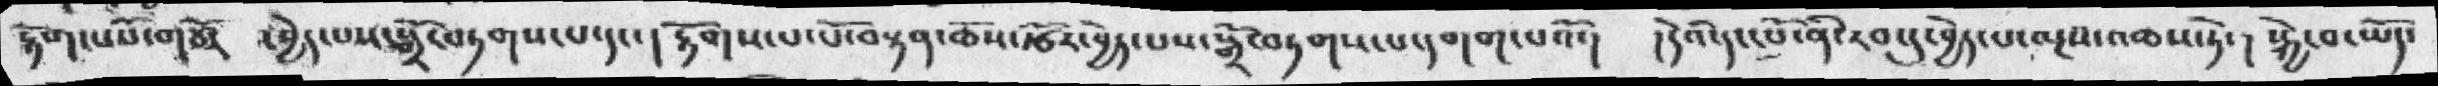རྟོག་པའི་གཅོར  ་བྱེད་པས་སྒྲོ་བཏགས་པ་དང་ ། རྟོགས་པ་པོ་བསྟན་ཆོས་རྩོར་བྱེད་པས་སྒྲོ་བཏགས་པ་དགག་པའོ་།  །དེའི་དང་པོ་ནི་རབ་དུ་བྱེད་པ་ལྔས་འཆས་ཏེ་།  སྐྱེ་བ་ཡོད་
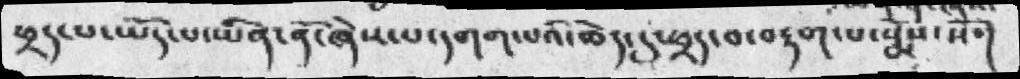ཕྲད་པ་ཡོད་པ་ཡིན་ནོ་ཞེས་པ་དགག་པའི་ཆེད་དུ་ཕྲད་བ་བརྟག་པ་སྨོས་སོ་
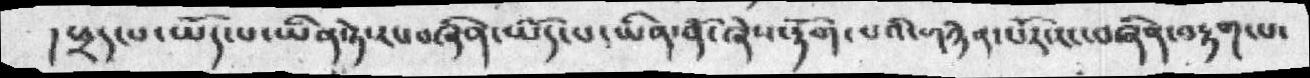།ཕྲད་པ་ཡོད་པ་ཡིན་ཏེ་རང་བཞིན་ཡོད་པ་ཡིན་ནོ་ཞེས་རྟོག་པའི་གཉེན་པོར་རང་བཞིན་བརྟག་པ་
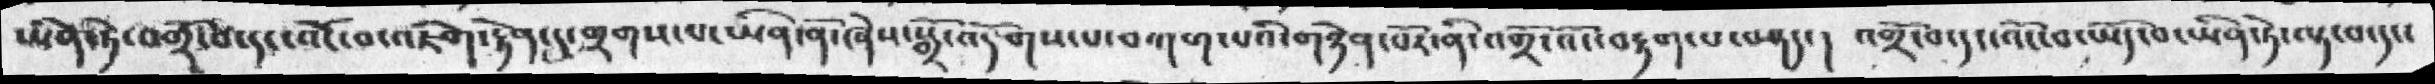ཡིན་ཏེ་བགྲོ་བ་དང་འོང་བ་འཇིག་རྟེན་དུ་གྲགས་པ་ཡིན་ནོ་ཞེས་སྒྲོ་འདོགས་པ་བཀག་པའི་གཉེན་པོར་ནི་འགྲོ་འོང་བརྟག་པ་བཤད་།  འགྲོ་བ་དང་འོང་བ་ཡོད་བ་ཡིན་ཏེ་ལྟ་བ་དང་
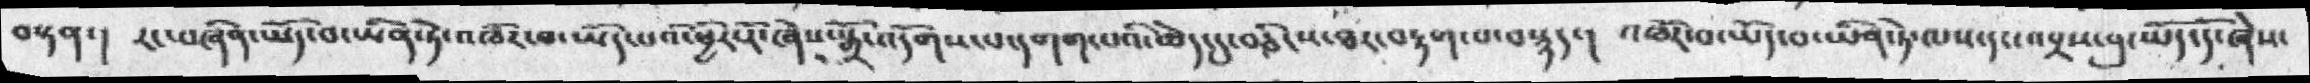བསྟན་། རང་བཞིན་ཡོད་བ་ཡིན་ཏེ་འཁོར་བ་ཡོད་པའི་ཕྱིར་རོ་ཞེས་སྒྲོ་འདོགས་པ་དགག་པའི་ཆེད་དུ་བཅིངས་ཐར་བརྟག་པ་བསྙད་།  འཁོར་བ་ཡོད་བ་ཡིན་ཏེ་ལས་དང་འབྲས་བུ་ཡོད་དོ་ཞེས་
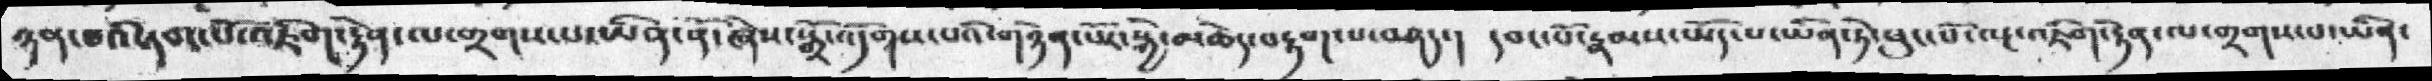ཉན་པའི་དབང་པོ་འཇིག་རྟེན་ལ་གྲགས་པ་ཡིན་ནོ་ཞེས་སྒྲོ་འདོགས་པའི་གཉེན་པོར་སྐྱེ་མཆེད་བརྟག་པ་བཤད་། དབང་པོ་རྣམས་ཡོད་པ་ཡིན་ཏེ་ཕུང་པོ་ལྔ་འཇིག་རྟེན་ལ་གྲགས་པ་ཡིན་
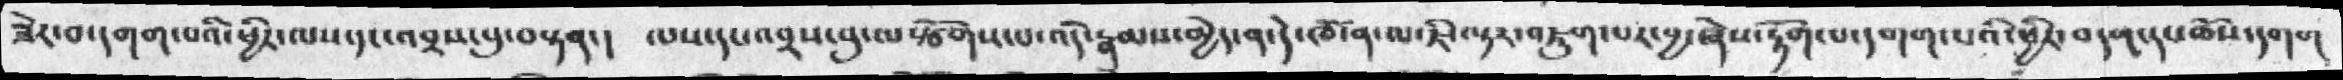ཟེར་བ་དགག་པའི་ཕྱིར་ལས་དང་འབྲས་བུ་བསྟན་།  ལས་དང་འབྲས་བུ་ལསྩོགས་པ་འདི་རྣམས་མྱེད་ན་དེ་ཁོ་ན་ཇི་ལྟར་འཇུག་པར་བྱ་ཞེས་རྟོག་པ་དགག་པའི་ཕྱིར་བདག་དང་ཆོས་དགག
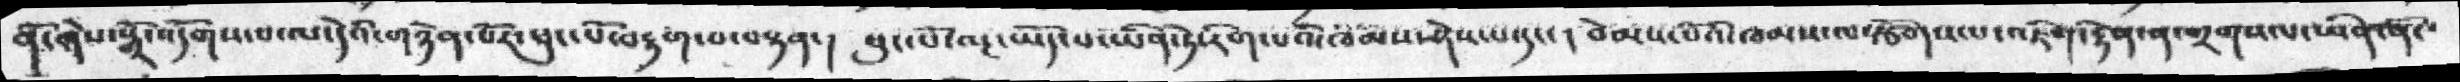ནོ་གེས་སྒྲོ་འདོགས་པ་ལ་དེའི་གཉེན་པོར་ཕུང་པོ་བརྟག་པ་བསྟན་། ཕུང་པོ་ལྔ་ཡོད་པ་ཡིན་ཏེ་རིག་པའི་ཁམས་ཤེས་པ་དང་། བེམས་པོའི་ཁམས་ལསྩོགས་པ་འཇིག་རྟེན་ན་གྲགས་པ་ཡིན་ནོ་
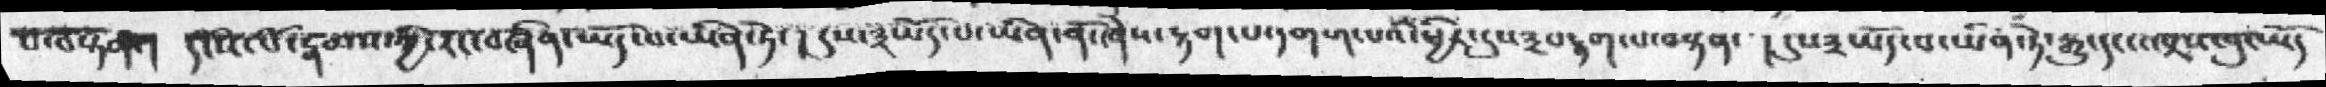པ་བསྟན་། དངོས་པོ་རྣམས་ཀྱི་རང་བཞིན་ཡོད་བ་ཡིན་ཏེ་། དུས་༣ཡོད་པ་ཡིན་ནོ་ཞེས་རྟག་པ་དགག་པའི་ཕྱིར་དུས༣བརྟག་པ་བསྟན་  །དུས༣ཡོད་པ་ཡིན་ཏེ་རྒྱུ་དང་འབྲས་བུ་ཡོད
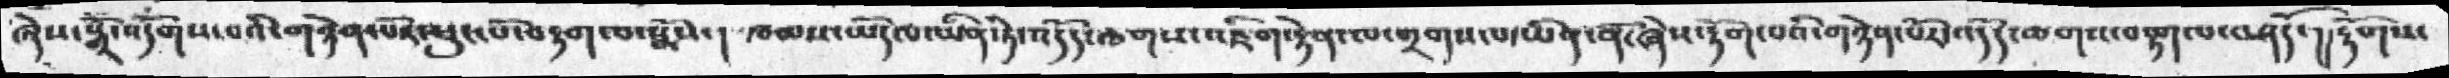ཞེས་སྒྲོ་འདོགས་པའི་གཉེན་པོར་ཕུང་པོ་བརྟག་པ་སྨོས་།  ཁམས་ཡོད་པ་ཡིན་ཏེ་འདོད་ཆགས་འཇིག་རྟེན་ལ་གྲགས་པ་ཡིན་ནོ་ཞེས་རྟོག་པའི་གཉེན་པོར་འདོད་ཆགས་བརྟག་པ་བཤདོ་།།རྟོགས་
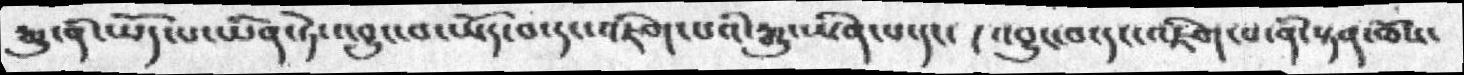རྒྱུ་ནི་ཡོད་པ་ཡིན་ཏེ་འབྱུང་བ་ཡོད་པ་དང་འཇིག་པའི་རྒྱུ་ཡིན་པ་དང་། འབྱུང་བ་དང་འཇིག་པ་ནི་སྟན་ཆོས་
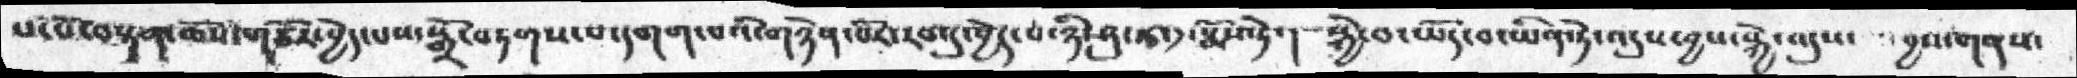པ་པོ་བསྟན་ཆོས་གཙོར་བྱེད་པས་སྒྲོ་བཏགས་པ་དགག་པའི་གཉེན་པོར་རབ་དུ་བྱེད་པ་ཉི་ཤུ་རྩ་༡་སྨོས་ཏེ་།  སྐྱེ་བ་ཡོད་བ་ཡིན་ཏེ་འདུས་བྱས་སྐྱེ་འདུས་  བྱས་གནས་
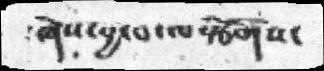ཞེས་བྱ་བ་ལསྩོགས་
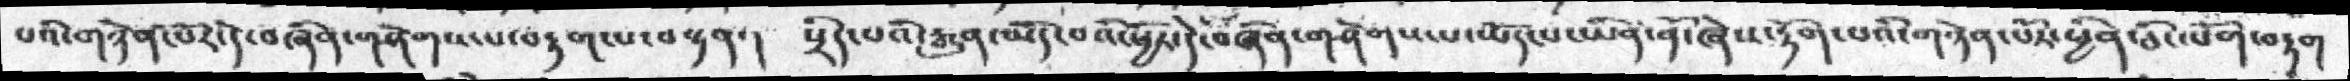པའི་གཉེན་པོར་དེ་བཞིན་གཤེགས་པ་བརྟག་པ་བསྟན་།  སྲིད་པའི་རྒྱུན་ཡོད་པའི་ཕྱིར་དེ་བཞིན་གཤེགས་པ་ཡིན་ནོ་ཞེས་རྟོག་པའི་གཉེན་པོར་ཕྱིན་ཅི་ལོག་བརྟག
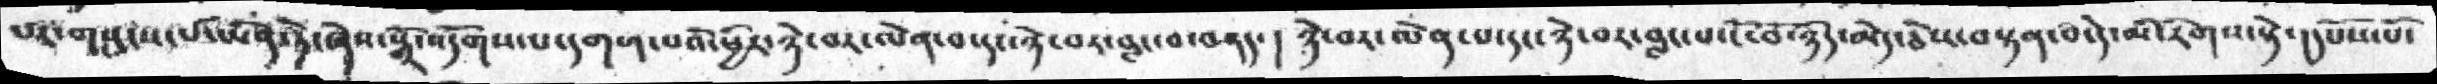པར་གསུངས་པ་ཡིན་ཏེ་ཞེས་སྒྲོ་འདོགས་པ་དགག་པའི་ཕྱིར་ཉེ་བར་ལེན་པ་དང་ཉེ་བར་བླང་བ་བཤད་། ཉེ་བར་ལེན་པ་དང་ཉེ་བར་བླང་པ་ངོ་བོ་ཉིད་མེད་ཅེས་བསྟན་པ་དེ་མི་རིགས་སྟེ་། དངོས་པོ་
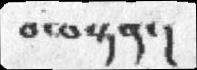བ་བསྟན་།
